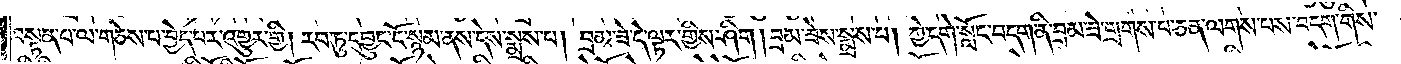བསྟན་པ་ལ་གཅེས་པ་བྱེད་པར་འགྱུར་གྱི། རབ་ཏུ་དབྱུང་ངོ་སྙམ་ནས་དེས་སྨྲས་པ། བྲམ་ཟེ་དེ་ལྟར་གྱིས་ཤིག། བྲམ་ཟེས་སྨྲས་པ། ཀྱེ་དགེ་སློང་བདག་ནི་བྲམ་ཟེ་གྲགས་པ་ཅན་ལགས་པས་བདག་གིས་
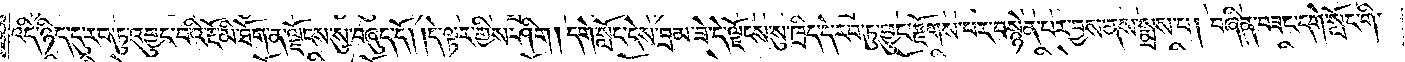འདི་ཉིད་དུ་རབ་ཏུ་འབྱུང་བའི་རྔོ་མི་ཐོག་ན་ལྗོངས་སུ་བཞུད་དོ། །དེ་ལྟར་གྱིས་ཤིག །དགེ་སློང་དེས་བྲམ་ཟེ་དེ་ལྗོངས་སུ་ཁྲིད་དེ་རབ་ཏུ་ཕྱུང་རྫོགས་པར་བསྙེན་པར་བྱས་ནས་སྨྲས་པ། བཞིན་བཟང་དགེ་སློང་གི་
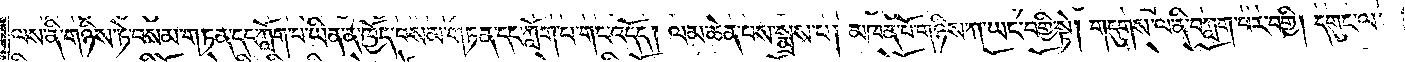ལས་ནི་གཉིས་ཏེ་བསམ་གཏན་དང་ཀློག་པ་ཡིན་ན་ཁྱོད་བསམ་གཏན་དང་ཀློག་པ་གང་འདོད། ལམ་ཆེན་པས་སྨྲས་པ། མཁན་པོ་གཉིས་ཀ་ཡང་བགྱི་སྟེ། གདུགས་ལ་ནི་བཀླག་པར་བགྱི། དགུང་ལ་
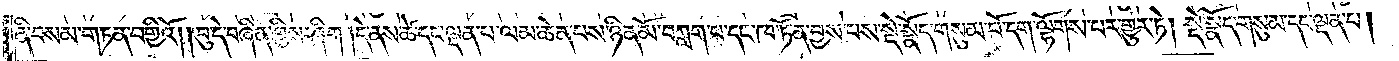ནི་བསམ་གཏན་བགྱིའོ། །བུ་དེ་བཞིན་གྱིས་ཤིག །དེ་ནས་ཚེ་དང་ལྡན་པ་ལམ་ཆེན་པས་ཉིན་མོ་བཀླག་པ་དང་ཁ་ཏོན་བྱས་པས་སྡེ་སྣོད་གསུམ་པོ་དག་ལྷོགས་པར་གྱུར་ཏེ། སྡེ་སྣོད་གསུམ་དང་ལྡན་པ།
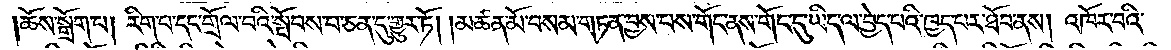ཆོས་སྒྲོག་པ། རིག་པ་དང་གྲོལ་བའི་སྤོབས་པ་ཅན་དུ་གྱུར་ཏོ། །མཚན་མོ་བསམ་གཏན་བྱས་པས་གོང་ནས་གོང་དུ་ཡིད་ལ་བྱེད་པའི་ཁྱད་པར་ཐོབ་ནས། འཁོར་བའི་
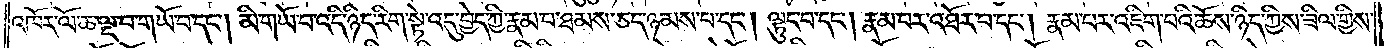འཁོར་ལོ་ཆ་ལྔ་པ་གཡོ་བ་དང༌། མི་གཡོ་བ་འདི་ཉིད་རིག་སྟེ་འདུ་བྱེད་ཀྱི་རྣམ་པ་ཐམས་ཅད་ཉམས་པ་དང༌། ལྟུང་བ་དང༌། རྣམ་པར་འཐོར་བ་དང༌། རྣམ་པར་འཇིག་པའི་ཆོས་ཉིད་ཀྱིས་ཟིལ་གྱིས་
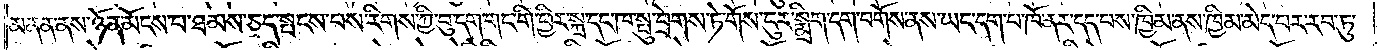མནན་ནས་ཉོན་མོངས་པ་ཐམས་ཅད་སྤངས་པས་རིགས་ཀྱི་བུ་དག་གང་གི་ཕྱིར་སྐྲ་དང་ཁ་སྤུ་བྲེགས་ཏེ་གོས་ངུར་སྨྲིག་དག་བགོས་ནས་ཡང་དག་པ་ཁོ་ནར་དད་པས་ཁྱིམ་ནས་ཁྱིམ་མེད་པར་རབ་ཏུ་
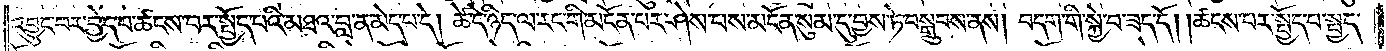འབྱུང་བར་བྱེད་པ་ཚངས་པར་སྤྱོད་པའི་མཐའ་བླ་ན་མེད་པ་དེ། ཚེ་དེ་ཉིད་ལ་རང་གི་མངོན་པར་ཤེས་པས་མངོན་སུམ་དུ་བྱས་ཏེ་བསྒྲུབས་ནས། བདག་གི་སྐྱེ་བ་ཟད་དོ། །ཚངས་པར་སྤྱོད་པ་སྤྱད་
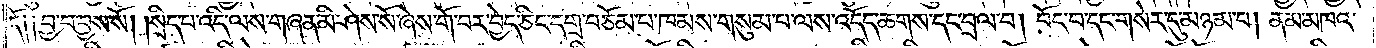དོ༑ ༑བྱ་བ་བྱས་སོ། །སྲིད་པ་འདི་ལས་གཞན་མི་ཤེས་སོ་ཞེས་གོ་བར་བྱེད་ཅིང་དགྲ་བཅོམ་པ་ཁམས་གསུམ་པ་ལས་འདོད་ཆགས་དང་བྲལ་བ། བོང་པ་དང་གསེར་དུ་མཉམ་པ། ནམ་མཁའ་
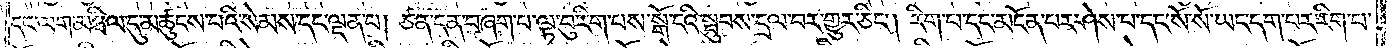དང་ལག་མཐིལ་དུ་མཚུངས་པའི་སེམས་དང་ལྡན་པ། ཙན་དན་བཞག་པ་ལྟ་བུ་རིགས་པས་སྒོ་ངའི་སྦུབས་དྲལ་བར་གྱུར་ཅིང༌། རིག་པ་དང་མངོན་པར་ཤེས་པ་དང་སོ་སོ་ཡང་དག་པར་རིག་པ་
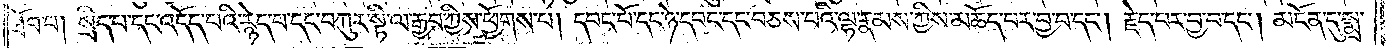ཐོབ་བ། སྲིད་པ་དང་འདོད་པའི་རྙེད་པ་དང་བཀུར་སྟི་ལ་རྒྱབ་ཀྱིས་ཕྱོགས་པ། དབང་པོ་དང་ཉེ་དབང་དང་བཅས་པའི་ལྷ་རྣམས་ཀྱིས་མཆོད་པར་བྱ་བ་དང༌། རྗེད་པར་བྱ་བ་དང༌། མངོན་དུ་སྨྲ་
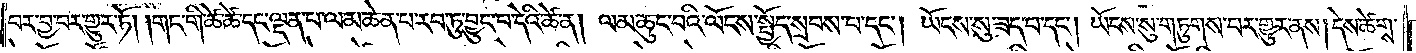བར་བྱ་བར་གྱུར་ཏོ། །གང་གི་ཚེ་ཚེ་དང་ལྡན་པ་ལམ་ཆེན་པ་རབ་ཏུ་བྱུང་བ་དེའི་ཚེ་ན། ལམ་ཆུང་བའི་ལོངས་སྤྱོད་སྲབས་པ་དང༌། ཡོངས་སུ་ཟད་པ་དང༌། ཡོངས་སུ་གཏུགས་པར་གྱུར་ནས། དེས་ཚེགས་
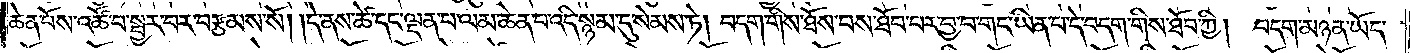ཆེན་པོས་འཚོ་བ་སྦྱར་བར་བརྩམས་སོ། །དེ་ནས་ཚེ་དང་ལྡན་པ་ལམ་ཆེན་པོ་འདི་སྙམ་དུ་སེམས་ཏེ། བདག་གིས་ཐོས་པས་ཐོབ་པར་བྱ་བ་གང་ཡིན་པ་དེ་བདག་གིས་ཐོབ་ཀྱི། བདག་མཉན་ཡོད་
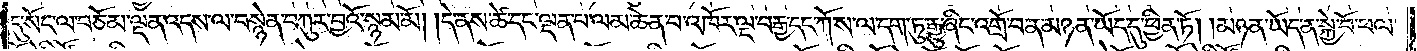དུ་སོང་ལ་བཅོམ་ལྡན་འདས་ལ་བསྙེན་བཀུར་བྱའོ་སྙམ་མོ། །དེ་ནས་ཚེ་དང་ལྡན་པ་ལམ་ཆེན་པ་འཁོར་ལྔ་བརྒྱ་དང་ཀོ་ས་ལ་དག་ཏུ་རྒྱུ་ཞིང་འགྲོ་བ་ན་མཉན་ཡོད་དུ་ཕྱིན་ཏོ། །མཉན་ཡོད་ན་སྐྱེ་བོ་ཕལ་
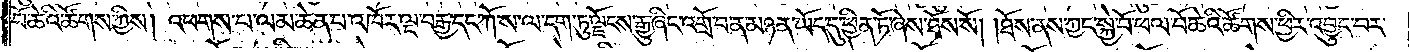པོ་ཆེའི་ཚོགས་ཀྱིས། འཕགས་པ་ལམ་ཆེན་པ་འཁོར་ལྔ་བརྒྱ་དང་ཀོ་ས་ལ་དག་ཏུ་ལྗོངས་རྒྱུ་ཞིང་འགྲོ་བ་ན་མཉན་ཡོད་དུ་ཕྱིན་ཏོ་ཞེས་ཐོས་སོ། །ཐོས་ནས་ཀྱང་སྐྱེ་བོ་ཕལ་པོ་ཆེའི་ཚོགས་ཕྱིར་འབྱུང་བར་
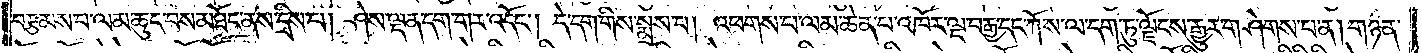བརྩམས་པ་ལམ་ཆུང་བས་མཐོང་ནས་དྲིས་པ། ཤེས་ལྡན་དག་གང་འདོད། དེ་དག་གིས་སྨྲས་པ། འཕགས་པ་ལམ་ཆེན་པ་འཁོར་ལྔ་བརྒྱ་དང་ཀོ་ས་ལ་དག་ཏུ་ལྗོངས་རྒྱུར་གཤེགས་པ་ན། གཉན་
